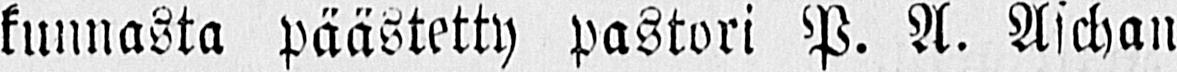kunnasta päästetty pastori P. A. Aschan
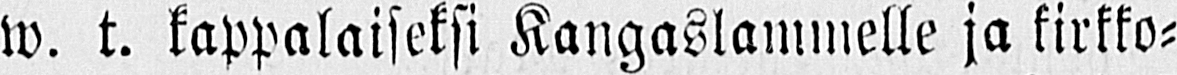w. t. kappalaiseksi Kangaslammelle ja kirkko-
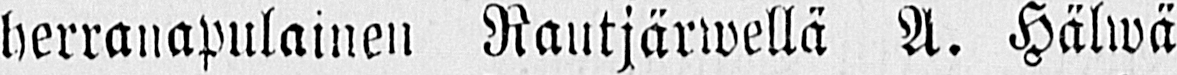herranapulainen Rautjärwellä A. Hälwä
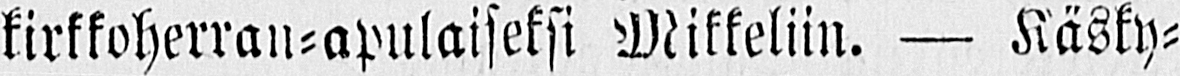kirkkoherran-apulaiseksi Mikkeliin. — Käsky-
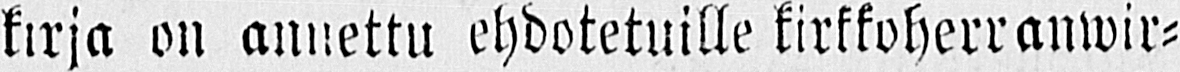kirja on annettu ehdotetuille kirkkoherranwir-
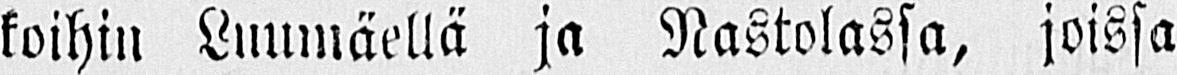koihin Luumäellä ja Nastolassa, joissa
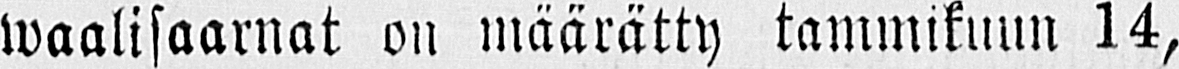waalisaarnat on määrätty tammikuun 14,
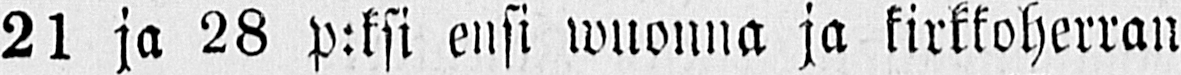21 ja 28 p:ksi ensi wuonna ja kirkkoherran
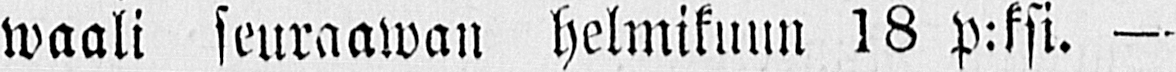waali seuraawan helmikuun 18 p:ksi. —
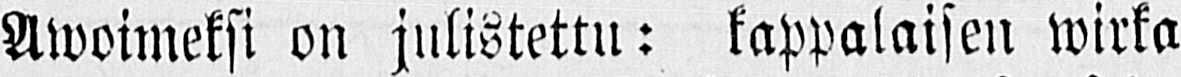Awoimeksi on julistettu: kappalaisen wirka
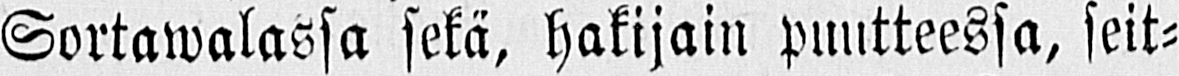Sortawalassa sekä, hakijain puutteessa, seit-
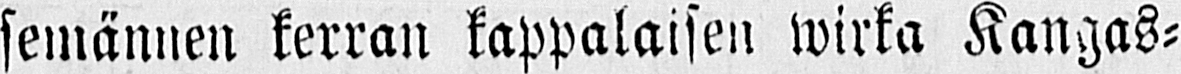semännen kerran kappalaisen wirka Kangas-
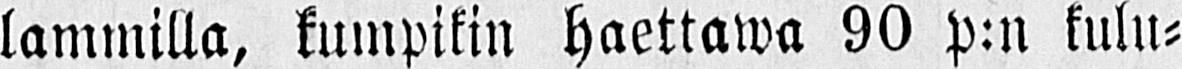lammilla, kumpikin haettawa 90 p:n kulu-
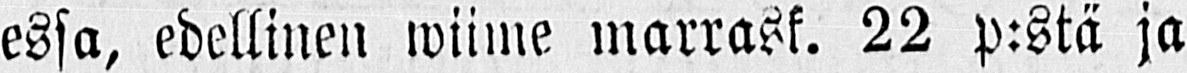essa, edellinen wiime marrask. 22 p:stä ja
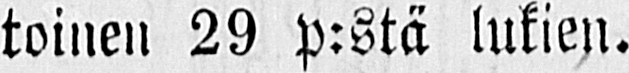toinen 29 p:stä lukien.
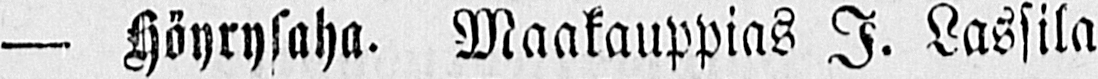— Höyrysaha. Maakauppias I. Lassila
